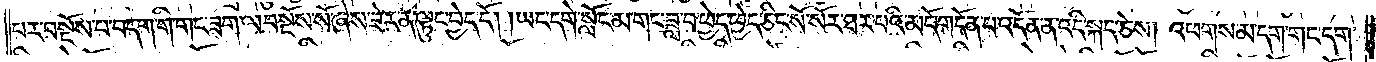པར་བསྔོས་པ་བདག་གི་གང་ཟག་ལ་བསྔོས་སོ་ཞེས་ཟེར་ན་ལྟུང་བྱེད་དོ། །ཡང་དགེ་སློང་མ་གང་ཟླ་བ་ཕྱེད་ཕྱེད་ཅིང་སོ་སོར་ཐར་པའི་མདོ་གདོན་པ་འདོན་ན་འདི་སྐད་ཅེས། འཕགས་མ་དག་གང་དག་
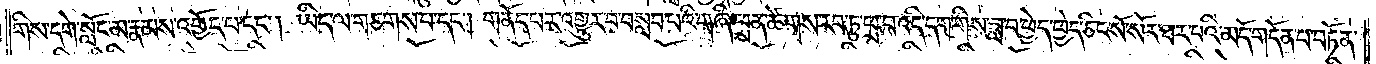གིས་དགེ་སློང་མ་རྣམས་འགྱོད་པ་དང༌། ཡིད་ལ་གཅགས་པ་དང༌། གནོད་པར་འགྱུར་བ་བསླབ་པའི་གཞི་ཕྲན་ཚེགས་རབ་ཏུ་ཕྲ་བ་འདི་དག་གིས་ཟླ་བ་ཕྱེད་ཕྱེད་ཅིང་སོ་སོར་ཐར་པའི་མདོ་གདོན་པ་བཏོན་
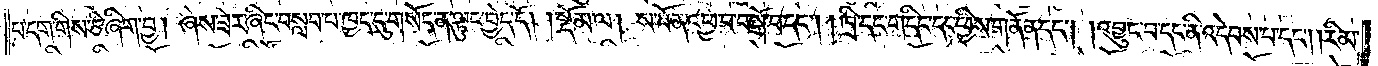པ་དག་གིས་ཅི་ཞིག་བྱ། ཞེས་ཟེར་ཞིང་བསླབ་པ་ཁྱད་དུ་གསོད་ན་ལྟུང་བྱེད་དོ།    །སྡོམ་ལ། ས་བོན་འཕྱ་བ་བསྒོ་བ་དང༌། ཁྲི་དང་གདིང་དང་ཕྱིས་གནོན་དང༌། །འབྱུང་བ་དང་ནི་འདེབས་པ་དང༌། །རིམ་
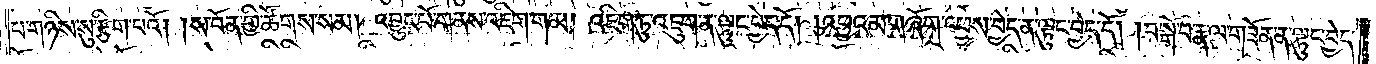པ་གཉིས་སུ་རྩིག་པའོ། །ས་བོན་གྱི་ཚོགས་སམ། འབྱུང་པོ་གནས་འཇིག་གམ། འཇིག་ཏུ་འཇུག་ན་ལྟུང་བྱེད་དོ། །འཕྱའམ་གཞོག་འཕྱས་བྱེད་ན་ལྟུང་བྱེད་དོ། །བསྒོ་བ་རྣལ་གཟོན་ན་ལྟུང་བྱེད་
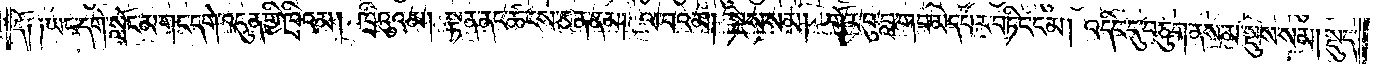དོ༑ ༑ཡང་དགེ་སློང་མ་གང་དགེ་འདུན་གྱི་ཁྲིའམ། ཁྲིའུའམ། སྟན་ནང་ཚངས་ཅན་ནམ། ལ་བའམ། སྔས་སམ། གོར་བུ་བླ་གབ་མེད་པར་བཏིང་ངམ། འདིང་དུ་བཅུག་ནས་མ་སྡུས་སམ། སྡུད་
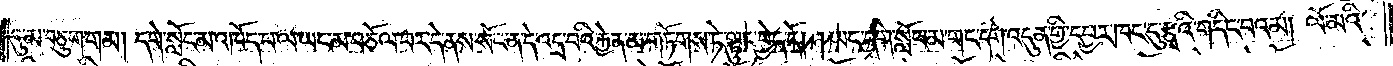དུ་མ་བཅུག་གམ། དགེ་སློང་མ་འཁོད་པ་ལ་ཡང་མ་བཅོལ་བར་དེ་ནས་སོང་ན་དེ་འདྲ་བའི་རྐྱེན་མ་གཏོགས་ཏེ་ལྟུང་བྱེད་དོ། །ཡང་དགེ་སློང་མ་གང་དགེ་འདུན་གྱི་དབྱར་ཁང་དུ་རྩྭའི་གདིང་བའམ། ལོ་མའི་
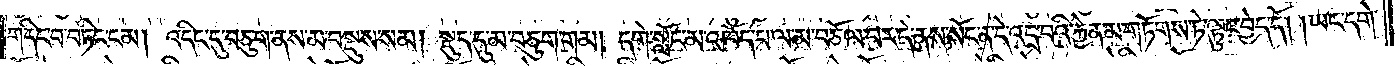གདིང་བ་བཏིང་ངམ། འདིང་དུ་བཅུག་ནས་མ་བསྡུས་སམ། སྡུད་དུ་མ་བཅུག་གམ། དགེ་སློང་མ་འཁོད་པ་ལ་མ་བཅོལ་བར་དེ་ནས་སོང་ན་དེ་འདྲ་བའི་རྐྱེན་མ་གཏོགས་ཏེ་ལྟུང་བྱེད་དོ། །ཡང་དགེ་
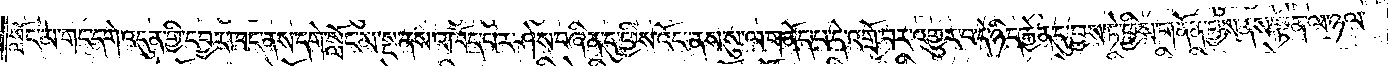སློང་མ་གང་དགེ་འདུན་གྱི་དབྱར་ཁང་ནས་དགེ་སློང་མ་སྔ་ནས་འཁོད་པར་ཤེས་བཞིན་དུ་ཕྱིས་འོང་ནས་སུ་ལ་གནོད་པ་དེ་འགྲོ་བར་འགྱུར་བ་དེ་ཉིད་རྐྱེན་དུ་བྱས་ཏེ་ཕྱིས་གནོན་བྱས་ནས་སྟན་ལ་ཉལ་
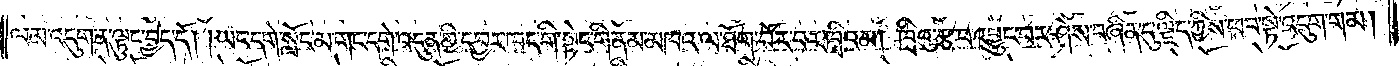ལམ་འདུག་ན་ལྟུང་བྱེད་དོ། །ཡང་དགེ་སློང་མ་གང་དགེ་འདུན་གྱི་དབྱར་ཁང་གི་སྟེང་གི་ནམ་མཁའ་ལ་ཐོག་བོར་བར་ཁྲིའམ། ཁྲིའུ་རྩ་བ་འབྱུང་བར་ཤེས་བཞིན་དུ་ལྗིད་ཀྱིས་ཕབ་སྟེ་འདུག་གམ།
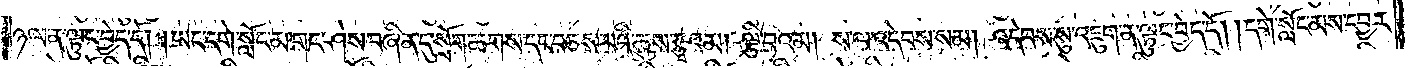ཉལ་ན་ལྟུང་བྱེད་དོ། །ཡང་དགེ་སློང་མ་གང་ཤེས་བཞིན་དུ་སྲོག་ཆགས་དང་བཅས་པའི་ཆུས་རྩྭའམ། ལྕི་བའམ། ས་ལ་འདེབས་སམ། འདེབས་སུ་འཇུག་ན་ལྟུང་བྱེད་དོ། །དགེ་སློང་མས་དབྱར་
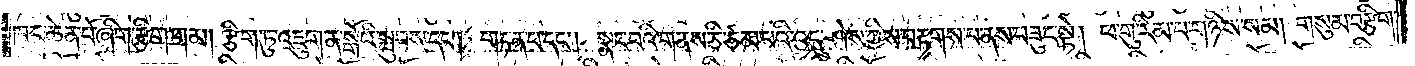ཁང་ཆེན་པོ་ཞིག་རྩིག་གམ། རྩིག་ཏུ་འཇུག་ན་སྒོའི་སྦུབས་དང༌། གཏན་པ་དང༌། སྣང་བའི་གནས་ཅི་ཙམ་པའི་འདུ་ཤེས་ཀྱིས་བརྟགས་པ་ནས་བཟུང་སྟེ། ཕ་གུ་རིམ་པ་གཉིས་སམ། གསུམ་བརྩིག་
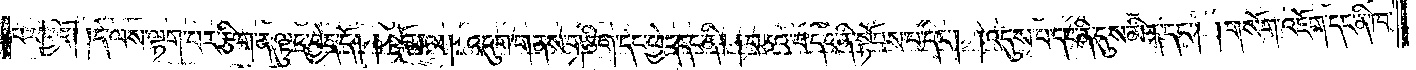པར་བྱའོ། །དེ་ལས་ལྷག་པར་རྩིག་ན་ལྟུང་བྱེད་དོ།    །སྡོམ་ལ། འདུག་གནས་གཅིག་དང་ཕྱེད་དང་ནི། །བཅའ་བ་དང་ནི་སྟོབས་པ་དང༌། །འདུས་པ་དང་ནི་དུས་མིན་དང༌། །གསོག་འཇོག་དང་ནི་ཁ་
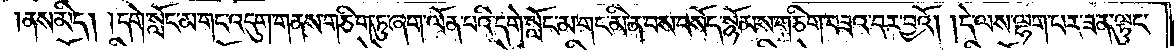ནས་མིད། །དགེ་སློང་མ་གང་འདུག་གནས་གཅིག་ཏུ་ཞག་ལོན་པའི་དགེ་སློང་མ་གང་མིན་པས་བསོད་སྙོམས་གཅིག་བཟའ་བར་བྱའོ། །དེ་ལས་ལྷག་པར་ཟ་ན་ལྟུང་
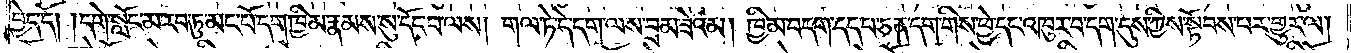བྱེད་དོ། །དགེ་སློང་མ་རབ་ཏུ་མང་པོ་དག་ཁྱིམ་རྣམས་སུ་དོང་བ་ལས། གལ་ཏེ་དེ་དག་ལས་བྲམ་ཟེའམ། ཁྱིམ་བདག་དད་བ་ཅན་དག་གིས་ཕྱེ་དང་འཁུར་བ་དག་དུས་ཀྱིས་སྟོབས་པར་གྱུར་ལ།
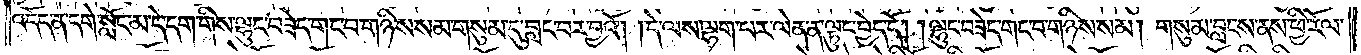འདོད་ན་དགེ་སློང་མ་དེ་དག་གིས་ལྷུང་བཟེད་གང་བ་གཉིས་སམ་གསུམ་དུ་བླང་བར་བྱའོ། །དེ་ལས་ལྷག་པར་ལེན་ན་ལྟུང་བྱེད་དོ། །ལྷུང་བཟེད་གང་བ་གཉིས་སམ། གསུམ་བླངས་ནས་ཕྱི་རོལ་
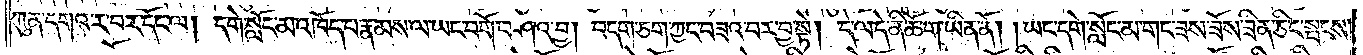ཀུན་དགའ་ར་བར་དོང་ལ། དགེ་སློང་མ་འཁོད་པ་རྣམས་ལ་ཡང་བགོ་བཤའ་བྱ། བདག་ཅག་ཀྱང་བཟའ་བར་བྱ་སྟེ། དེ་ལ་དེ་ནི་ཆོ་ག་ཡིན་ནོ། །ཡང་དགེ་སློང་མ་གང་ཟག་ཟོས་ཟིན་ཅིང་སྤངས་
